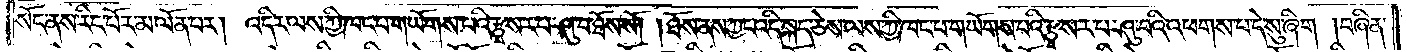སོང་ནས་རིང་པོར་མ་ལོན་པར། འདིར་ལས་ཀྱི་ཁང་པ་གཡོགས་པའི་རྩྭ་སར་པ་ཤུ་བ་ཐོས་སོ། །ཐོས་ནས་ཀྱང་འདི་སྐད་ཅེས་ལས་ཀྱི་ཁང་པ་གཡོགས་པའི་རྩྭ་སར་པ་ཤུ་བའི་འཕགས་པ་དེ་སུ་ཞིག །བཞིན་
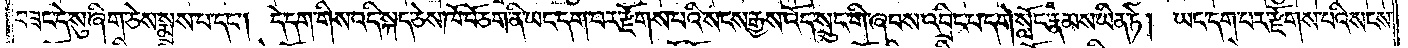བཟང་དེ་སུ་ཞིག་ཅེས་སྨྲས་པ་དང༌། དེ་དག་གིས་འདི་སྐད་ཅེས་ཁོ་བོ་ཅག་ནི་ཡང་དག་པར་རྫོགས་པའི་སངས་རྒྱས་འོད་སྲུང་གི་ཞབས་འབྲིང་པ་དགེ་སློང་རྣམས་ཡིན་ཏེ། ཡང་དག་པར་རྫོགས་པའི་སངས་
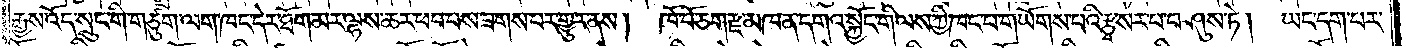རྒྱས་འོད་སྲུང་གི་གཙུག་ལག་ཁང་དེར་ཐོག་མར་ལྷས་ཆར་ཕབ་པས་ཟགས་པར་གྱུར་ནས། ཁོ་བོ་ཅག་རྫ་མཁན་དགའ་སྐྱོང་གི་ལས་ཀྱི་ཁང་པ་གཡོགས་པའི་རྩྭ་སར་པ་བཤུས་ཏེ། ཡང་དག་པར་
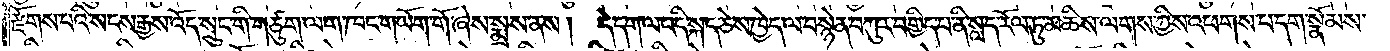རྫོགས་པའི་སངས་རྒྱས་འོད་སྲུང་གི་གཙུག་ལག་ཁང་གཡོག་གོ་ཞེས་སྨྲས་ནས། དེ་དག་ལ་འདི་སྐད་ཅེས་ཁྱེད་ལ་བསྙེན་བཀུར་བགྱིད་པ་ནི་སླད་རོལ་ཏུ་མཆིས་ལགས་ཀྱིས་འཕགས་པ་དག་སྣོམས་
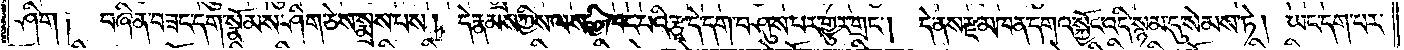ཤིག ༑  བཞིན་བཟང་དག་སྣོམས་ཤིག་ཅེས་སྨྲས་པས། དེ་རྣམས་ཀྱིས་ལས་ཀྱི་ཁང་པའི་རྩྭ་དེ་དག་བཤུས་པར་གྱུར་གྲང༌། དེ་ནས་རྫ་མཁན་དགའ་སྐྱོང་འདི་སྙམ་དུ་སེམས་ཏེ། ཡང་དག་པར་
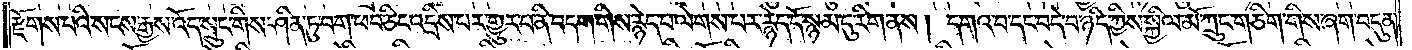རྫོགས་པའི་སངས་རྒྱས་འོད་སྲུང་གིས་ཤིན་ཏུ་བག་ཕབ་ཅིང་འདྲིས་པར་གྱུར་པ་ནི་བདག་གིས་རྙེད་པ་ལེགས་པར་རྙེད་དོ་སྙམ་དུ་རིག་ནས། དགའ་བ་དང་བདེ་བ་ཉིད་ཀྱིས་སྐྱིལ་མོ་ཀྲུང་གཅིག་གིས་ཞག་བདུན་
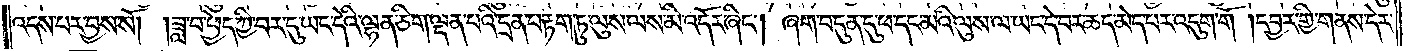འདས་པར་བྱས་སོ། །ཟླ་བ་ཕྱེད་ཀྱི་བར་དུ་ཡང་དེའི་ལྷན་ཅིག་ལྡན་པའི་དྲན་པ་རྟག་ཏུ་ལུས་ལས་མི་འདོར་ཞིང༌། ཞག་བདུན་དུ་ཕ་དང་མའི་ལུས་ལ་ཡང་དེ་བར་ཆད་མེད་པར་འདུག་གོ །དབྱར་གྱི་གནས་དེར་
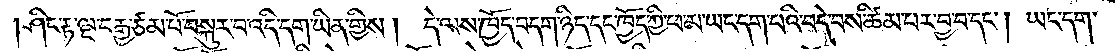ཤིང་རྟ་ལྔ་བརྒྱ་ཙམ་པོ་བསྐུར་བ་འདི་དག་ཡིན་གྱིས། དེ་ལས་ཁྱོད་བདག་ཉིད་དང་ཁྱོད་ཀྱི་ཕ་མ་ཡང་དག་པའི་བདེ་བས་ཚིམ་པར་བྱ་བ་དང༌། ཡང་དག་
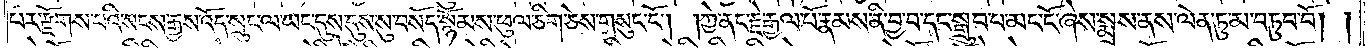པར་རྫོགས་པའི་སངས་རྒྱས་འོད་སྲུང་ལ་ཡང་དུས་སུ་བསོད་སྙོམས་ཕུལ་ཅིག་ཅེས་གསུང་ངོ༌། །ཀྱེ་ནང་རྗེ་རྒྱལ་པོ་རྣམས་ནི་བྱ་བ་དང་སྒྲུབ་པ་མང་ངོ་ཞེས་སྨྲས་ནས་ལེན་ཏུ་མ་བཏུབ་བོ། །
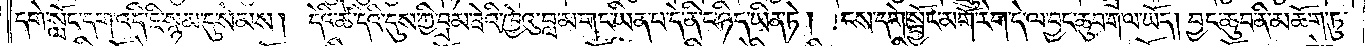དགེ་སློང་དག་འདི་ཇི་སྙམ་དུ་སེམས། དེའི་ཚེ་དེའི་དུས་ཀྱི་བྲམ་ཟེའི་ཁྱེའུ་བླ་མ་གང་ཡིན་པ་དེ་ནི་ང་ཉིད་ཡིན་ཏེ།  ངས་དགེ་སྦྱོང་མགོ་རེག་དེ་ལ་བྱང་ཆུབ་ག་ལ་ཡོད། བྱང་ཆུབ་ནི་མཆོག་ཏུ་
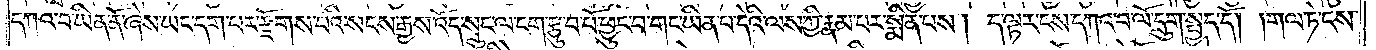དཀའ་བ་ཡིན་ནོ་ཞེས་ཡང་དག་པར་རྫོགས་པའི་སངས་རྒྱས་འོད་སྲུང་ལ་ངག་རྩུབ་པོ་ཕྱུང་བ་གང་ཡིན་པ་དེའི་ལས་ཀྱི་རྣམ་པར་སྨིན་པས། ད་ལྟར་ངས་དཀའ་བ་ལོ་དྲུག་སྤྱད་དོ། །གལ་ཏེ་ངས་
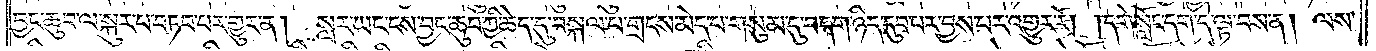བྱང་ཆུབ་ལ་སྐུར་པ་བཏབ་པར་གྱུར་ན། སླར་ཡང་ངས་བྱང་ཆུབ་ཀྱི་ཆེད་དུ་བསྐལ་པ་གྲངས་མེད་པ་གསུམ་དུ་བདག་ཉིད་དུབ་པར་བྱས་པར་འགྱུར་རོ། །དགེ་སློང་དག་དེ་ལྟ་བས་ན། ལས་
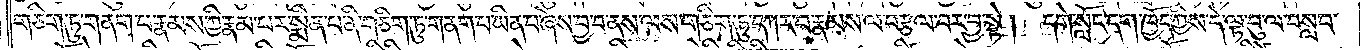གཅིག་ཏུ་གནག་པ་རྣམས་ཀྱི་རྣམ་པར་སྨིན་པ་ནི་གཅིག་ཏུ་གནག་པ་ཡིན་པ་ཞེས་བྱ་བ་ནས་ལས་གཅིག་ཏུ་དཀར་བ་རྣམས་ལ་བརྩལ་བར་བྱ་སྟེ། དགེ་སློང་དག་ཁྱོད་ཀྱིས་དེ་ལྟ་བུ་ལ་བསླབ་
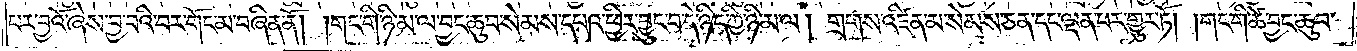པར་བྱའོ་ཞེས་བྱ་བའི་བར་གོང་མ་བཞིན་ནོ། །གང་གི་ཉི་མ་ལ་བྱང་ཆུབ་སེམས་དཔའ་ཕྱིར་བྱུང་བ་དེ་ཉིད་ཀྱི་ཉི་མ་ལ། གྲགས་འཛིན་མ་སེམས་ཅན་དང་ལྡན་པར་གྱུར་ཏོ། །གང་གི་ཚེ་བྱང་ཆུབ་
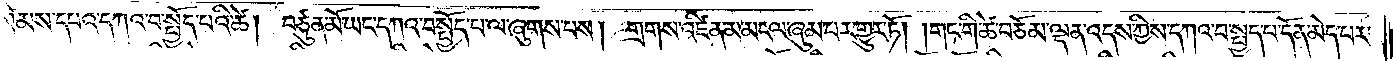སེམས་དཔའ་དཀའ་བ་སྤྱོད་པའི་ཚེ། བཙུན་མོ་ཡང་དཀའ་བ་སྤྱོད་པ་ལ་ཞུགས་པས། གྲགས་འཛིན་མ་མངལ་ཞུམ་པར་གྱུར་ཏོ། །གང་གི་ཚེ་བཅོམ་ལྡན་འདས་ཀྱིས་དཀའ་བ་སྤྱད་པ་དོན་མེད་པར་
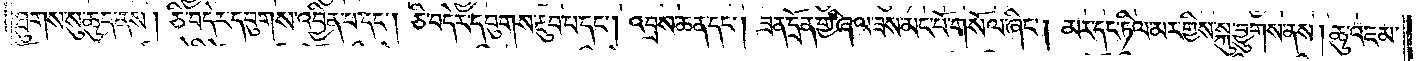ཐུགས་སུ་ཆུད་ནས། ཅི་བདེར་དབུགས་འབྱིན་པ་དང༌། ཅི་བདེར་དབུགས་རྔུབ་པ་དང༌། འབྲས་ཆན་དང༌། ཟན་དྲོན་གྱི་ཞལ་ཟས་མང་པོ་གསོལ་ཞིང༌། མར་དང་ཏིལ་མར་གྱིས་སྐུ་བྱུགས་ནས། ཆུ་འཇམ་
